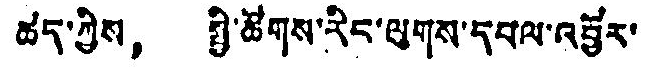ཚད་ཀྱིས， སྤྱི་ཚོགས་རིང་ལུགས་དཔལ་འབྱོར་
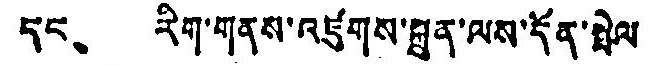དང、 རིག་གནས་འཛུགས་སྐྲུན་ལས་དོན་སྤེལ་
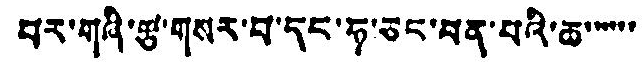བར་གཞི་རྩ་གསར་བ་དང་ཧ་ཅང་བན་པའི་ཆ་་་་་་
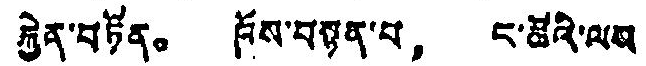རྐྱེན་བཏོན。 ཁོས་བསྟན་པ， ང་ཚོའི་ལམ
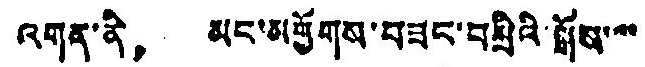འགན་ནི， མང་མགྱོགས་བཟང་བསྲིའི་སྒོས་་་་
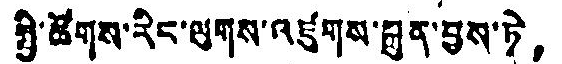སྤྱི་ཚོགས་རིང་ལུགས་འཛུགས་སྐྲུན་བྱས་ཏེ，
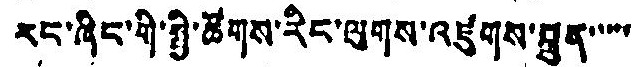རང་ཞིང་གི་སྤྱི་ཚོགས་རིང་ལུགས་འཛུགས་ཐུན་་་་་
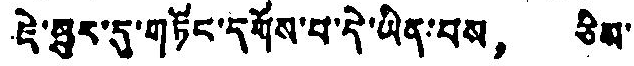ཇེ་མུར་དུ་གཏོང་དགོས་པ་དེ་ཡིན་པས， ཅིས་
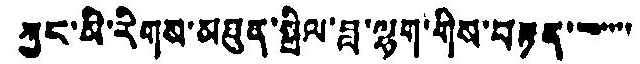ཀྱང་མི་རིགས་མཐུན་སྒྲིལ་བླ་ལྷག་གིས་བརྟན་་་་་་་
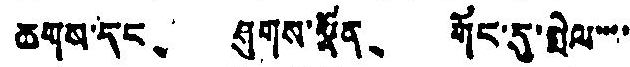ཆགས་དང、 ཤུགས་སྣོན、 གོང་དུ་སྤེལ་་་་
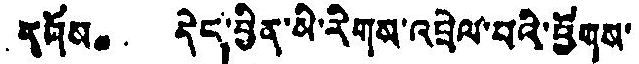དགོས。 དེང་བྱིན་མི་རིགས་འབྲེལ་བའི་ཕྱོགས་
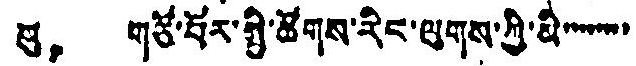སུ， གཙོ་བོར་སྤྱི་ཚོགས་རིང་ལུགས་ཀྱི་མི་་་་་་་་་
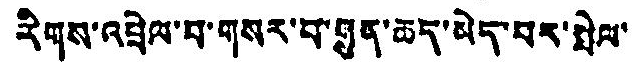རིགས་འབྲེལ་བ་གསར་བ་སྐྲུན་ཆད་མེད་པར་སྤེལ་
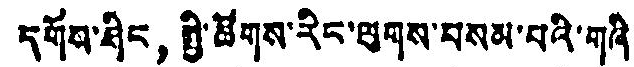དགོས་ཤིང，སྤྱི་ཚོགས་རིང་ལུགས་བསམ་པའི་གཞི་
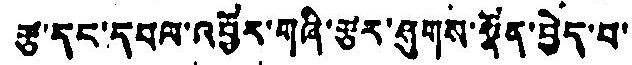རྩ་དང་དཔལ་འབྱོར་གཞི་རྩར་ཤུགས་སྣོན་བྱེད་པ་་
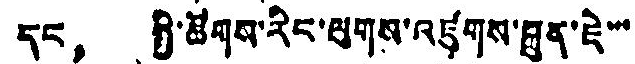དང， སྤྱི་ཚོགས་རིང་ལུགས་འཛུགས་ཁྲུན་ཇེ་་་་
